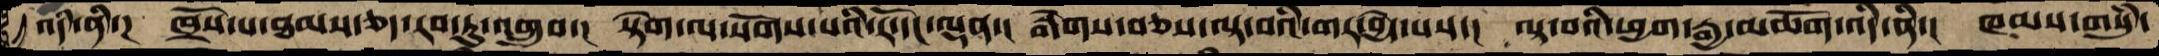འདི་ནི་། ཁྲོས་པ་ཐམས་ཅད་རབ་ཏུ་འགྲུབ་། སྟེག་ལ་སོགས་པའི་རོ་དང་ལྡན་། རྒེགས་བཅས་ལྟ་བའི་གར་བྱེད་པས་། ལྟ་བའི་ཕྱག་རྒྱ་མཆོག་འདི་ནི་། ཁམས་གསུཾ་
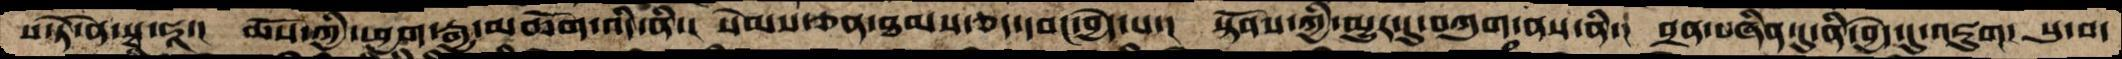ས་ཏེ་ནེ་སྭཱ་ཧཱ་། མོས་ཀྱི་ཕྱག་རྒྱ་མཆོག་འདི་ནི་། སེམས་ཅན་ཐམས་ཅད་དབང་བྱེད་པ་། སྟོབས་ཀྱི་མྱུར་དུ་བཀུག་ནས་ནི་། བྲན་བཞིན་དུ་ནི་བྱེད་དུ་འཇུག། སུ་བ་
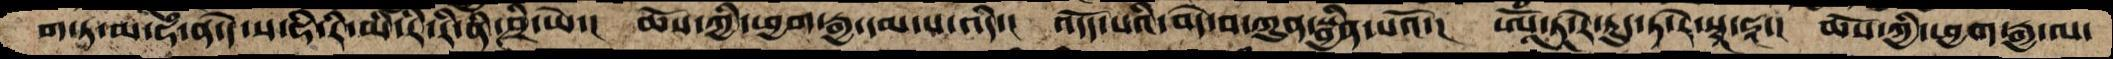ག་ཏ་མ་ཧེ་ན་དེ་ས་ཧི་རི་མི་རི་རི་ནི་ཤྲི་ཡེ་།  ཆོས་ཀྱི་ཕྱག་རྒྱ་དམ་པ་འདི་།  འདོད་པའི་བདེ་བ་ཀུན་སྦྱིན་པའོ་།  ཨོཾ་ཏཱ་རེ་ཏུ་ཏ་རེ་སྭཱ་ཧཱ་།  ཆོས་ཀྱི་ཕྱག་རྒྱ་ལ་
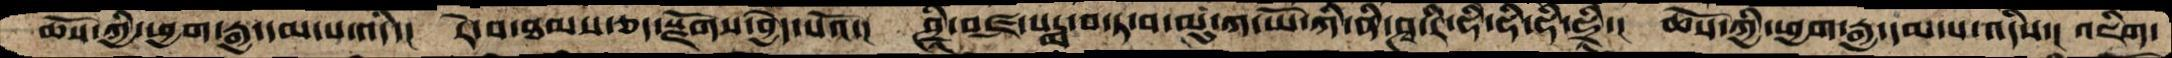ཆོས་ཀྱི་ཕྱག་རྒྱ་དམ་པ་འདི་།  རེ་བ་ཐམས་ཅད་སྫོགས་བྱེད་པའོ་།  ཤྲཱཱི་བཛྲ་པདྨ་བ་ཏ་བ་མུ་ཀ་ཡོ་ཀི་ནི་ཤྭ་རི་ཧི་ཧི་ཧི་ཧྲི་།  ཆོས་ཀྱི་ཕྱག་རྒྱ་དམ་པ་འདིས་།  འཇིག་
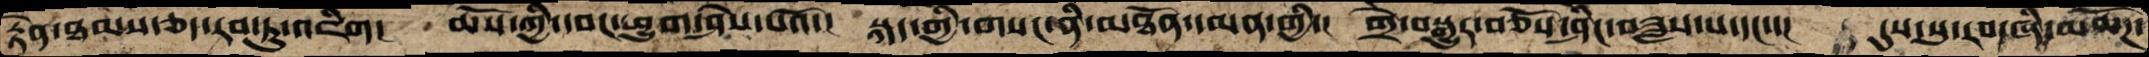རྟེན་ཐམས་ཅད་རབ་ཏུ་འཇིག།  ཆོས་ཀྱི་དབང་ཕྱུག་ཤེས་པའོ་།  སྐད་གྱི་གསང་ནི་མཐོན་དམན་གྱི་།  གྲེ་བསྒྱུར་བཅོས་ཤིང་བཟླས་པ་དང་་།  དུས་སུ་རབ་ཞི་མཆོཌ་
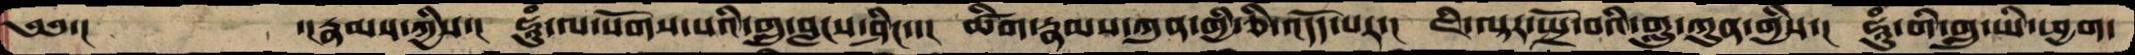༄༅་།         ་།རྣམས་ཀྱིས་།  ཧཱུཾ་ལ་སོགས་པའི་གླུ་བླངས་ཤིང་་།   ཚིག་རྣམས་ཀུན་གྱི་ཅི་འདོད་པར་།  ཇི་ལྟར་སྤྲོ་བའི་གླུ་ཀུན་གྱིས་།  ཧཱུཾ་གི་གླུ་ཡི་ཕྱག་
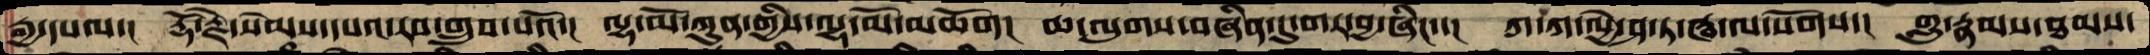རྒྱ་དཔལ་།  རྡོ་རྗེ་སེམས་དཔའ་རབ་གྲུབ་པའོ་།  ལྷ་མོ་ཀུན་གྱིས་ལྷ་མོ་མཆོག།  ཆ་ལུགས་བཞིན་དུ་གར་བྱ་ཞིང་་།  ཀ་ཀ་ལྱེ་ཤ་ཏ་ཝ་ལ་སོགས་།  གླུ་རྣམས་ཐམས་
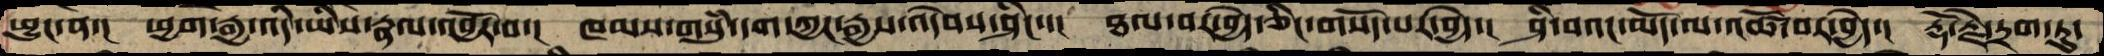ཕྱུང་ན་།  ཕྱག་རྒྱ་འདི་ཡིས་རྣལ་འབྱོར་བ་།  ཁམས་གསུཾ་དག་ཀྱང་རྒྱས་འདེབས་ཤིང་་།  ཐལ་བར་བྱེད་ཅིང་གསོད་པར་བྱེད་།  ཤི་བའང་མོད་ལ་འཚོ་བར་བྱེད་།  རྡོ་རྗེ་དྲག་ཏུ་
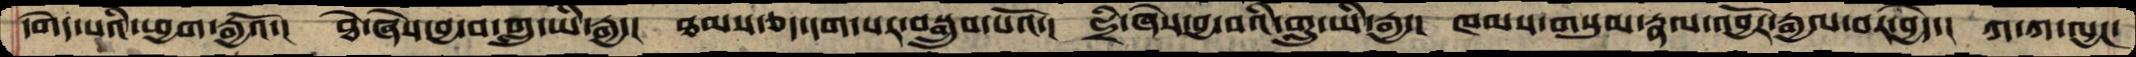དགེད་པའི་ཕྱག་རྒྱའོ་།  ཐེ་ཞེས་བྱ་བ་གླུ་ཡི་རྒྱ་།  ཐམས་ཅད་དག་པར་བསྒྲུབ་པའོ་།  ཧྲི་ཞེས་བྱ་བའི་གླུ་ཡི་རྒྱ་།  ཁམས་གསུམ་རྣལ་འབྱོར་རྒྱལ་བར་བྱེད་།  ཀ་ཀ་ལྱང་
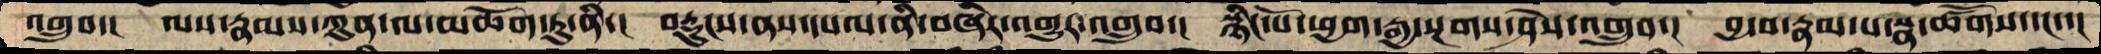འགྲུབ་།  ལས་རྣམས་ཀུན་ལ་མཆོག་ཏུ་ནི་།  བརྡུངས་ནས་དཔལ་ནི་བཞིར་འགྱུར་འགྲུབ་།  སྙིང་པོ་ཕྱག་རྒྱ་སྔགས་ཤེས་འགྲུབ་།  བྱ་བ་རྣམ་པ་སྣ་ཚོགས་དང་་།
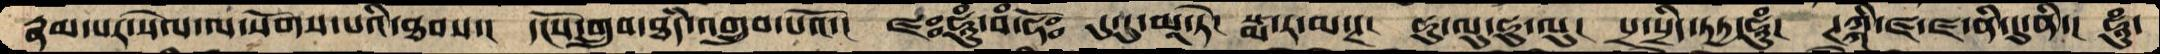རྣམ་པར་སེལ་ལ་སོགས་པའི་ཐབས་།  དངོས་གྲུབ་ཐཾད་འགྲུབ་པའོ་།  ཛཾཿཧཱུཾ་བཾ་ཧོཿ དུ་དུ་མཱ་ཏེ་  སྨ་ར་མ་ཊ་  ཧུ་ལུ་ཧུ་ལུ།  པྲ་སྲིད་ཏཏྱ་ཧཱུཾ།  ཊཀྐི་ཛ་ཛ་ནི་དུ་ནི་།  ཧཱུཾ་
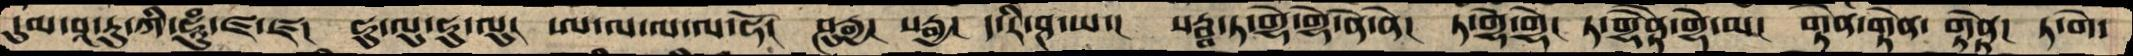དུམ་བཱ་རུ་ཀི་ཧཱུཾ་ཛ་ཛ།  ཧུ་ལུ་ཧུ་ལུ།  ཨ་ལ་ལ་ལ་ཧོ།  ཤུརྒྱ།  སརྒྱ།  ད་རི་ཤ་ཡ་།  སརྦྦ་ཏ་གྷེ་གྷེ་ནེ་ནེ།  ཏ་གྷེ་གྷེ།  ཏ་གྷེནྟེ་གྷེ་མ།  གྟེན་གྟེན་ གྟེནྟ།  ཏ་གེ་
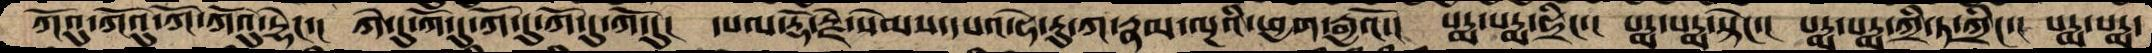ཀོའུ་ཀོའུ་ཀོ་ཀོའུ་དྷེང་་།  ཀེ་དུ་ཀོ་དུ་ཀོ་དུ་ཀོ་དུ་ཀོ་དུ།  དཔལ་རྡོ་རྗེ་སེམས་དཔའ་ཧེ་རུ་ཀ་རྣམ་ལྔའི་ཕྱག་རྒྱའོ་།  པདྨ་པདྨ་ཧྲིང་།  པདྨ་པདྨ་སྟེང་།  པདྨ་པདྨ་ཀྲི་ཏ་ཀྲིང་།  པདྨ་པདྨ་
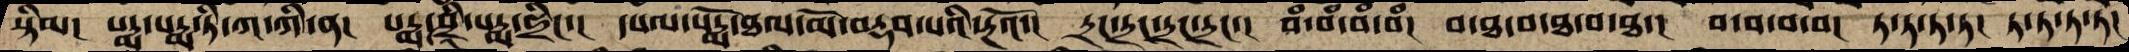སྟིམ།  པདྨ་པདྨ་ཏི་ཀ་ཀི་ན།  པདྨ་ཤྲཱི་པདྨ་ཧྲིང་།  དཔལ་པདྨོ་ཐལ་མོ་བརྡབ་པའི་རྔའོ་།  དྲང་དྲང་དྲང་དྲང་།  བཾ་བཾ་བཾ་བཾ།  བ་ཐ་བ་ཐ་བ་ཐ་།  བ་བ་བ་བ།  ཏ་ཏ་ཏ་ཏ།  ཏ་ཏ་ཏ་ཏ།
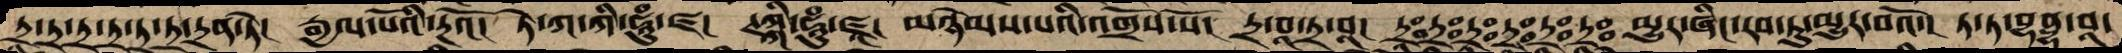ཏྲ་ཏྲ་ཏྲ་ཏྲ་ཏྲ་ཏྲ་དྲན་ཏེ།  རྒྱལ་པོའི་རྔའོ། ཏེ་ཀ་ཀི་ཧཱུཾ་ཛ།  ཊཀྐི་ཧཱུཾ་ཛཱ།  མཉེམས་པའི་འགྲོས་སོ་།  དྲ་བཱ་ཏྲ་བཱ།  དྲཱཿདྲཱཿདྲཱཿདྲཱཿདྲཱཿདྲཱཿ  མྱུར་ཞིང་རབ་ཏུ་མྱུར་བའོ་།  ཏ་ཏ་བྷནྡྷ་བཱ་
